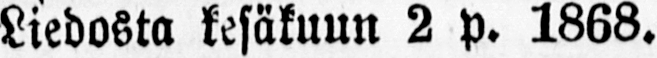Liedosta kesäkuun 2 p.1868.
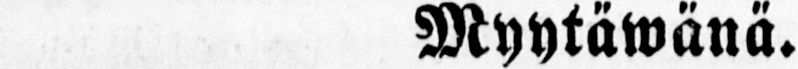Myytäwänä.
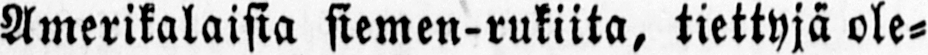Amerikalaisia siemen-rukiita, tiettyjä ole-
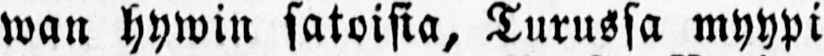wan hywin satoisia, Turussa myypi
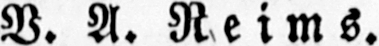V. A.Reims.
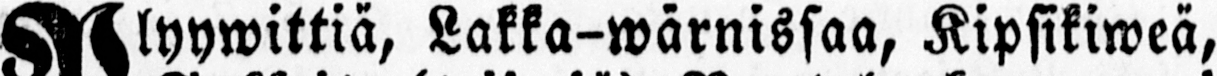Plyywittiä, Lakka-wärnissaa, Kipsikiweä,
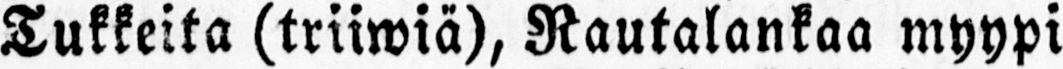Tukkeita (triiwiä), Rautalankaa myypi
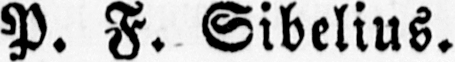P. F. Sibelius.
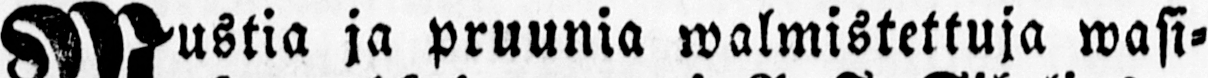Mustia ja pruunia walmistettuja wasi-
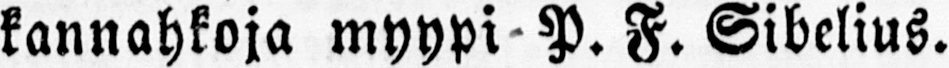kannahkoja myypi- P. F. Sibelius.
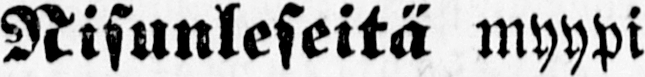Nisunleseitä myypi
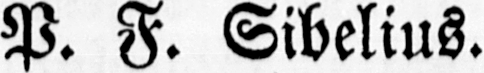P. F.Sibelius.
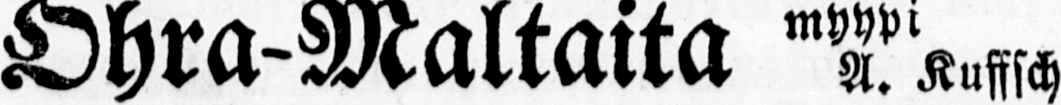Ohra-Maltaita myypi
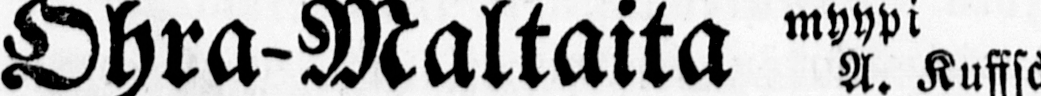A. Kuffschinoff.
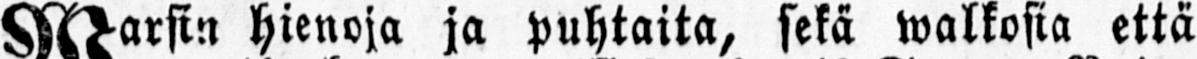Warsin hienoja ja puhtaita, sekä walkosia että
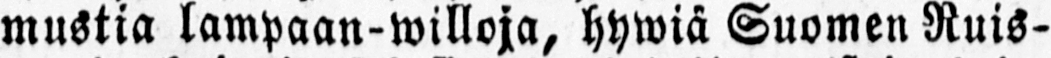mustia lampaan-willoja, hywiä Suomen Ruis-
